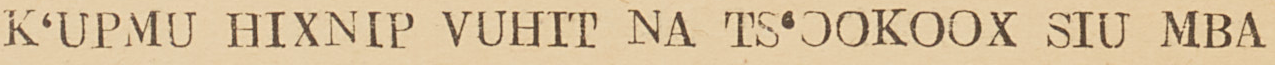K'UPMU HIXNIP VUHIT NA TS'OOKOOX SIU MBA
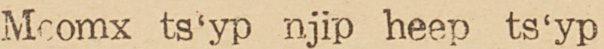Moomx ts'yp njip heep ts'yp
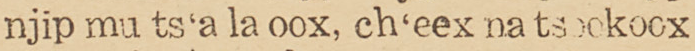njip mu ts'a la oox, ch'eex na tsookoox
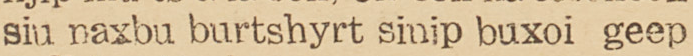siu naxbu burtshyrt sinip buxoi geep
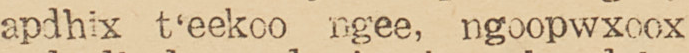apdhix t'eekoo ngee, ngoopwxoox
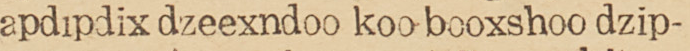apdipdix dzeexndoo koo booxshoo dzip-
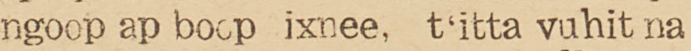ngoop ap boop ixnee, t'itta vuhit na
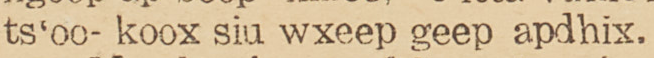ts'oo-koox siu wxeep geep apdhix.
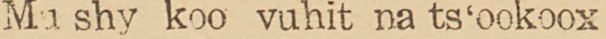Mu shy koo vuhit na ts'ookoox
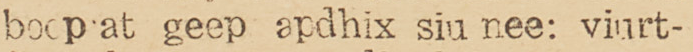boop'at geep apdhix siu nee: viurt-
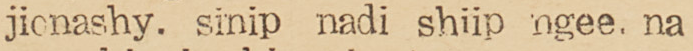jionashy. sinip nadi shiip ngee. na
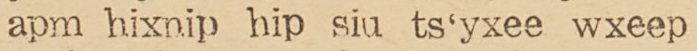apm hixnip hip siu ts'yxee wxeep
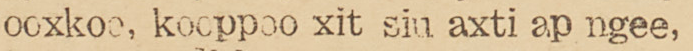ooxkoo, kooppoo xit siu axti ap ngee,
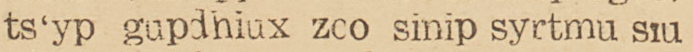ts'yp gupdhiux zoo sinip syrtmu siu
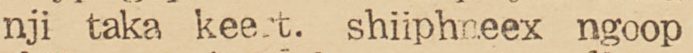nji taka keert. shiiphneex ngoop
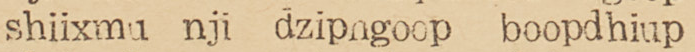shiixmu nji dzipngoop boopdhiup
